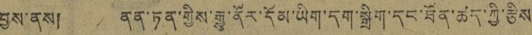བྱས་ནས། ནན་ཏན་གྱིས་རྒྱུ་ནོར་དོམ་ཡིག་དག་སྒྲིག་དང་ཐོན་ཚད་ཀྱི་རྩིས་
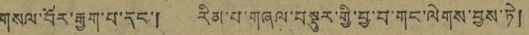གསལ་བོར་རྒྱག་པ་དང་། རིམ་པ་གཞལ་བསྡུར་གྱི་བྱ་བ་གང་ལེགས་བྱས་ཏེ།
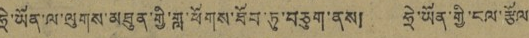ཧྲེ་ཡོན་ལ་ལུགས་མཐུན་གྱི་གླ་ཕོགས་ཐོབ་ཏུ་བཅུག་ནས། ཧྲེ་ཡོན་གྱི་ངལ་རྩོལ་
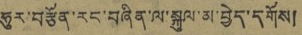ཧུར་བརྩོན་རང་བཞིན་ལ་སྐུལ་མ་བྱེད་དགོས།
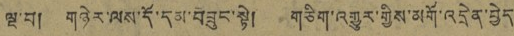ལྔ་བ། གཉེར་ལས་དོ་དམ་བཟུང་སྟེ། གཅིག་འགྱུར་གྱིས་མགོ་འདྲེན་བྱེད
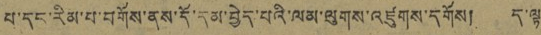པ་དང་རིམ་བ་བགོས་ནས་དོ་དམ་བྱེད་པའི་ལམ་ལུགས་འཛུགས་དགོས། ད་ལྟ
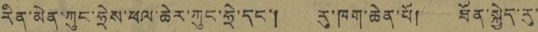རིན་མེན་ཀུང་ཧྲེས་ཕལ་ཆེར་ཀུང་ཧྲེ་དང་། རུ་ཁག་ཆེན་པོ། ཐོན་སྐྱེད་རུ་
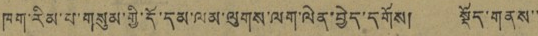ཁག་རིམ་པ་གསུམ་གྱི་དོ་དམ་ལམ་ལུགས་ལག་ལེན་བྱེད་དགོས། སྡོད་གནས་་
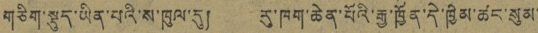གཅིག་སྡུད་ཡིན་པའི་ས་ཁུལ་དུ། རུ་ཁག་ཆེན་པོའི་རྒྱ་ཁྱོན་དེ་ཁྱིམ་ཚང་སུམ་
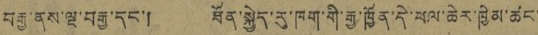བརྒྱ་ནས་ལྔ་བརྒྱ་དང་། ཐོན་སྐྱེད་རུ་ཁག་གི་རྒྱ་ཁྱོན་དེ་ཕལ་ཆེར་ཁྱིམ་ཚང་
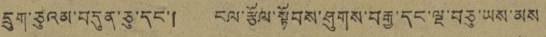དྲུག་ཅུའམ་བདུན་ཅུ་དང་། ངལ་རྩོལ་སྟོབས་ཤུགས་བརྒྱ་དང་ལྔ་བཅུ་ཡས་མས
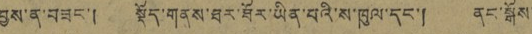བྱས་ནས་བཟང་། སྡོད་གནས་ཐར་ཐོར་ཡིན་པའི་ས་ཁུལ་དང་། ནང་སྒོས་
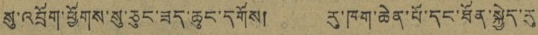སུ་འབྲོག་ཕྱོགས་སུ་ཅུང་ཟད་ཆུང་དགོས། རུ་ཁག་ཆེན་པོ་དང་ཐོན་སྐྱེད་རུ་
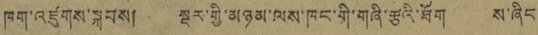ཁག་འཛུགས་སྐབས། སྔར་གྱི་མཉམ་ལས་ཁང་གི་གཞི་རྩའི་ཐོག ས་ཞིང་
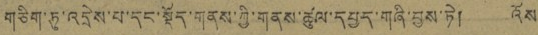གཅིག་ཏུ་འདྲེས་པ་དང་སྡོད་གནས་ཀྱི་གནས་ཚུལ་དཔྱད་གཞི་བྱས་ཏེ། འོས་
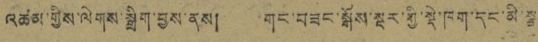འཚམ་གྱིས་ལེགས་སྒྲིག་བྱས་ནས། གང་བཟང་སྒོས་སྔར་གྱི་སྡེ་ཁག་དང་མི་སྣ་
